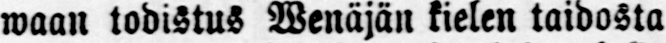waan todistus Wenäjän kielen taidosta
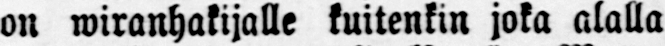on wiranhakijalle kuitenkin joka alalla
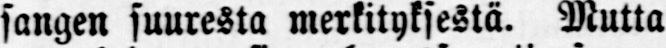sangen suuresta merkityksestä. Mutta
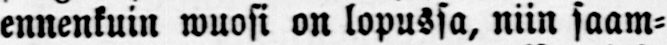ennenkuin wuosi on lopussa, niin saam-
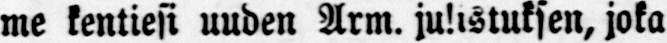me kentiesi uuden Arm. julistuksen, joka
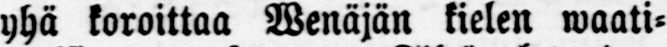yhä koroittaa Wenäjän kielen waati-
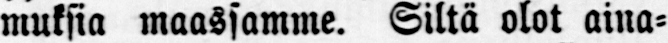muksia maassamme. Siltä olot aina-
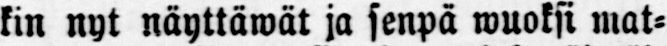kin nyt näyttäwät ja senpä wuoksi mat-
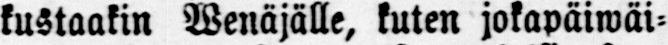kustaakin Wenäjälle, kuten jokapäiwäi-
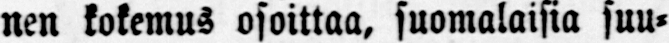nen kokemus osoittaa, suomalaisia suu-
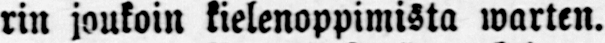rin joukoin kielenoppimista warten.
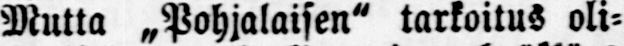Mutta „Pohjalaisen" tarkoitus oli-
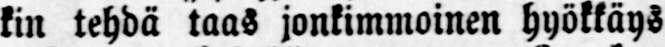kin tehdä taas jonkimmoinen hyökkäys
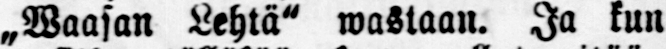„Waasan Lehtä" wastaan. Ja kun
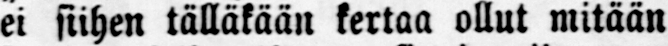ei siihen tälläkään kertaa ollut mitään
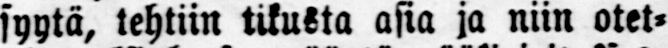syytä, tehtiin tikusta asia ja niin otel-
